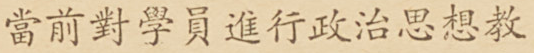當前對學員進行政治思想教
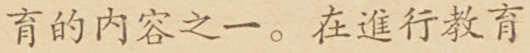育的內容之一。在進行教育
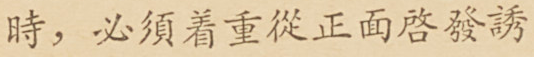時，必須着重從正面啓發誘
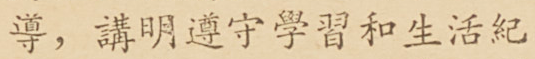導，講明遵守學習和生活紀
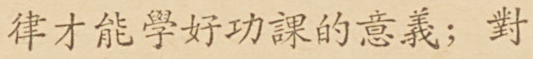律才能學好功課的意義；對
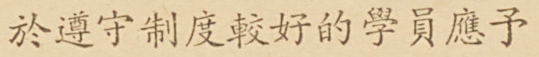於遵守制度較好的學員應予
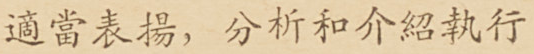適當表揚，分析和介紹執行
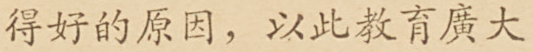得好的原因，以此教育廣大
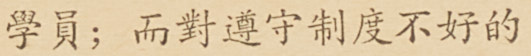學員；而對遵守制度不好的
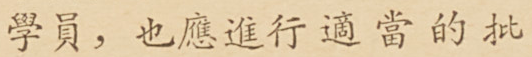學員，也應進行適當的批
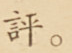評。
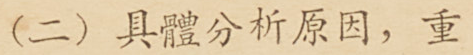（二）具體分析原因，重
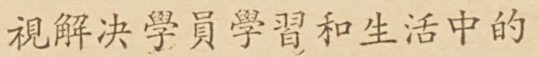視解決學員學習和生活中的
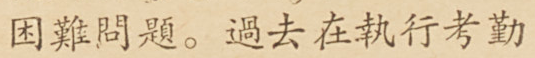困難問題。過去在執行考勤
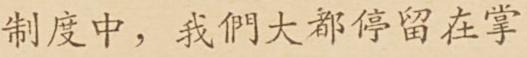制度中，我們大都停留在掌
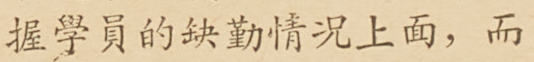握學員的缺勤情況上面，而
